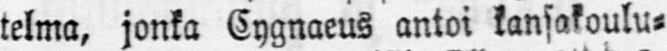telma, jonka Cygnaeus antoi kansakoulu-
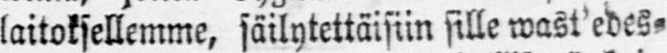laitoksellemme, säilytettäisiin sille wast'edes-
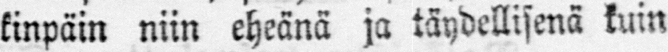kinpäin niin eheänä ja täydellisenä kuin
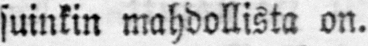suinkin mahdollista on.
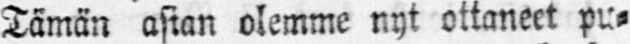Tämän asian olemme nyt ottaneet pu-
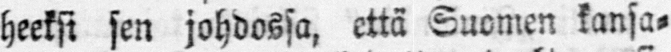heeksi sen johdossa, että Suomen kansa-
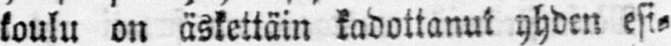koulu on äskettäin kadottanut yhden esi-
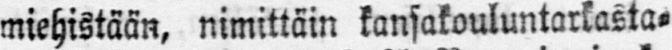miehistään, nimittäin kansakoluntarkasta-
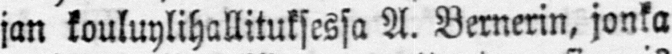jan kouluylihallituksessa A. jonka
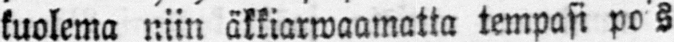kuolema niin äkkiarwaamatta tempasi pois
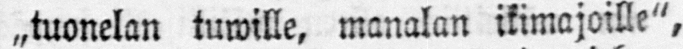„tuonelan tuwille, manalan ikimajoille",
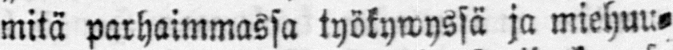mitä parhaimmassa työkywyssä ja miehuu-
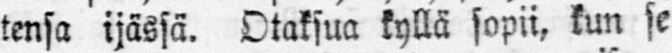tensa ijässä. Otaksua kyllä sopii, kun se
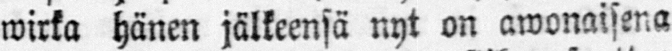wirka hänen jälkeensä nyt on awonaisena
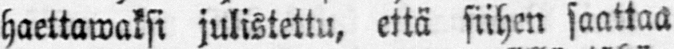haettawaksi julistettu, että siihen saattaa
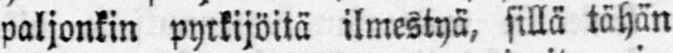paljonkin pyrkijöitä ilmestyä, sillä tähän
